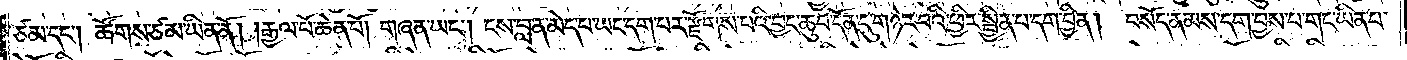ཙམ་དང༌། ཚོགས་ཙམ་ཡིན་ནོ།    །རྒྱལ་པོ་ཆེན་པོ། གཞན་ཡང༌། ངས་བླ་ན་མེད་པ་ཡང་དག་པར་རྫོགས་པའི་བྱང་ཆུབ་དོན་དུ་གཉེར་བའི་ཕྱིར་སྦྱིན་པ་དག་བྱིན། བསོད་ནམས་དག་བྱས་པ་གང་ཡིན་པ་
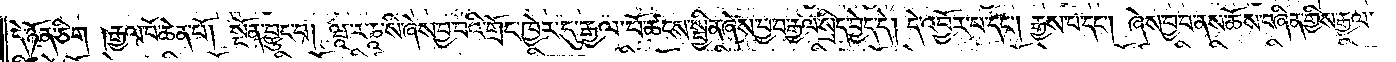དེ་ཉོན་ཅིག །རྒྱལ་པོ་ཆེན་པོ། སྔོན་བྱུང་བ། ཝཱ་ར་ཎཱ་སི་ཞེས་བྱ་བའི་གྲོང་ཁྱེར་དུ་རྒྱལ་པོ་ཚངས་སྦྱིན་ཞེས་བྱ་བ་རྒྱལ་སྲིད་བྱེད་དེ། དེ་འབྱོར་བ་དང༌། རྒྱས་པ་དང༌། ཞེས་བྱ་བ་ནས་ཆོས་བཞིན་གྱིས་རྒྱལ་
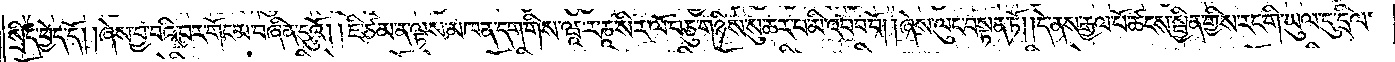སྲིད་བྱེད་དོ། །ཞེས་བྱ་བའི་བར་གོང་མ་བཞིན་དུའོ། །ཇི་ཙམ་ན་ལྟས་མཁན་དག་གིས་ཝཱ་ར་ཎཱ་སིར་ལོ་བཅུ་གཉིས་སུ་ཆར་པ་མི་འབབ་བོ། །ཞེས་ལུང་བསྟན་ཏོ། །དེ་ནས་རྒྱལ་པོ་ཚངས་སྦྱིན་གྱིས་རང་གི་ཡུལ་དུ་དྲིལ་
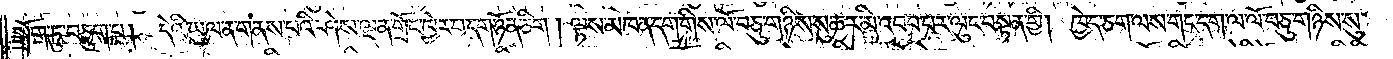སྒྲོག་ཏུ་བཅུག་པ། དེའི་ཡུལ་ན་གནས་པའི་ཤེས་ལྡན་གྲོང་ཁྱེར་བ་དག་ཉོན་ཅིག །ལྟས་མཁན་དག་གིས་ལོ་བཅུ་གཉིས་སུ་ཆར་མི་འབབ་པར་ལུང་བསྟན་གྱི། ཁྱེད་ཅག་ལས་གང་དག་ལ་ལོ་བཅུ་གཉིས་སུ་
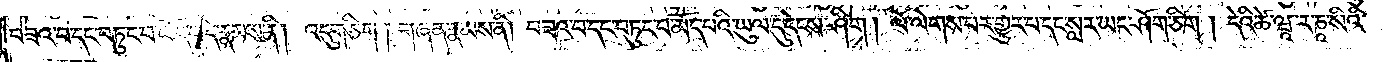བཟའ་བ་དང་བཏུང་བ་ཡོད་པ་དེ་རྣམས་ནི། འདུག་ཅིག །གཞན་རྣམས་ནི། བཟའ་བ་དང་བཏུང་བ་མོད་པའི་ཡུལ་དུ་དེངས་ཤིག །ལོ་ལེགས་པར་གྱུར་པ་དང་སླར་ཡང་ཤོག་ཅིག །དེའི་ཚེ་ཝཱ་ར་ཎཱ་སིའི་
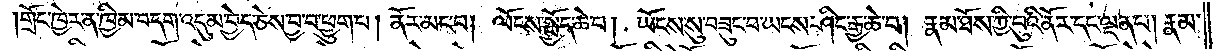གྲོང་ཁྱེར་ན་ཁྱིམ་བདག་འདུམ་བྱེད་ཅེས་བྱ་བ་ཕྱུག་པ། ནོར་མང་བ། ལོངས་སྤྱོད་ཆེ་བ། ཡོངས་སུ་བཟུང་བ་ཡངས་ཤིང་རྒྱ་ཆེ་བ། རྣམ་ཐོས་ཀྱི་བུའི་ནོར་དང་ལྡན་པ། རྣམ་
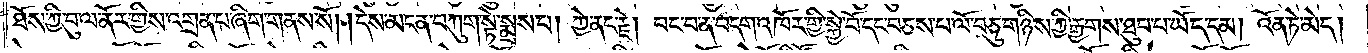ཐོས་ཀྱི་བུ་ལ་ནོར་གྱིས་འགྲན་པ་ཞིག་གནས་སོ། །དེས་མངན་བཀུག་སྟེ་སྨྲས་པ། ཀྱེ་ནང་རྗེ། བང་བ་ན་བདག་འཁོར་གྱི་སྐྱེ་བོ་དང་བཅས་པ་ལོ་བཅུ་གཉིས་ཀྱི་རྒྱགས་ཐུབ་པ་ཡོད་དམ། འོན་ཏེ་མེད།
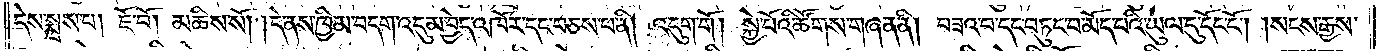དེས་སྨྲས་པ། ཇོ་བོ། མཆིས་སོ། །དེ་ནས་ཁྱིམ་བདག་འདུམ་བྱེད་འཁོར་དང་བཅས་པ་ནི། འདུག་གོ། སྐྱེ་བོའི་ཚོགས་གཞན་ནི། བཟའ་བ་དང་བཏུང་བ་མོད་པའི་ཡུལ་དུ་དོང་ངོ༌། །སངས་རྒྱས་
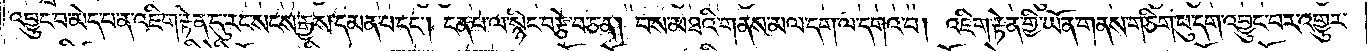འབྱུང་བ་མེད་པ་ན་འཇིག་རྟེན་དུ་རང་སངས་རྒྱས་དམན་པ་དང༌། ངན་པ་ལ་སྙིང་བརྩེ་བ་ཅན། བས་མཐའི་གནས་མལ་དག་ལ་དགའ་བ། འཇིག་རྟེན་གྱི་ཡོན་གནས་གཅིག་པུ་དག་འབྱུང་བར་འགྱུར་
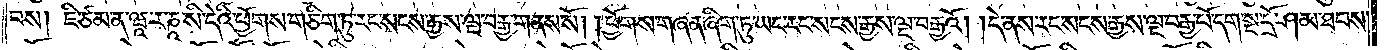བས། ཇི་ཙམ་ན་ཝཱ་ར་ཎཱ་སི་དེའི་ཕྱོགས་གཅིག་ཏུ་རང་སངས་རྒྱས་ལྔ་བརྒྱ་གནས་སོ། །ཕྱོགས་གཞན་ཞིག་ཏུ་ཡང་རང་སངས་རྒྱས་ལྔ་བརྒྱའོ། །དེ་ནས་རང་སངས་རྒྱས་ལྔ་བརྒྱ་པོ་དག་སྔ་དྲོ་ཤམ་ཐབས་
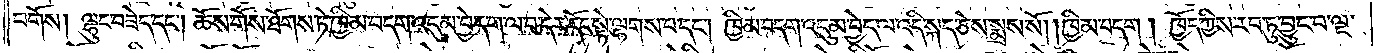བགོས། ལྷུང་བཟེད་དང༌། ཆོས་གོས་ཐོགས་ཏེ་ཁྱིམ་བདག་འདུམ་བྱེད་ག་ལ་བ་དེར་དོང་སྟེ་ལྷགས་པ་དང༌། ཁྱིམ་བདག་འདུམ་བྱེད་ལ་འདི་སྐད་ཅེས་སྨྲས་སོ། །ཁྱིམ་བདག །ཁྱོད་ཀྱིས་རབ་ཏུ་བྱུང་བ་ལྔ་
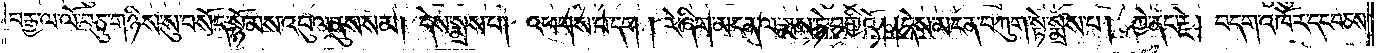བརྒྱ་ལ་ལོ་བཅུ་གཉིས་སུ་བསོད་སྙོམས་འབུལ་ནུས་སམ། དེས་སྨྲས་པ། འཕགས་པ་དག །རེ་ཞིག་མངན་ལ་རྨས་ཏེ་བགྱིའོ། །དེས་མངན་བཀུག་སྟེ་སྨྲས་པ། ཀྱེ་ནང་རྗེ། བདག་འཁོར་དང་བཅས་
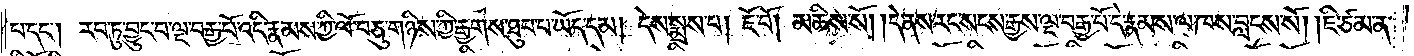པ་དང༌། རབ་ཏུ་བྱུང་བ་ལྔ་བརྒྱ་པོ་འདི་རྣམས་ཀྱི་ལོ་བཅུ་གཉིས་ཀྱི་རྒྱགས་ཐུབ་པ་ཡོད་དམ། དེས་སྨྲས་པ། ཇོ་བོ། མཆིས་སོ། །དེ་ནས་རང་སངས་རྒྱས་ལྔ་བརྒྱ་པོ་དེ་རྣམས་ལ་ཁས་བླངས་སོ། །ཇི་ཙམ་ན་
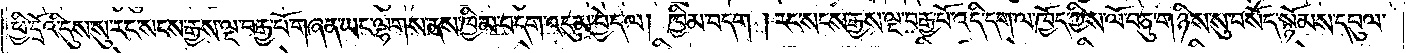ཕྱི་དྲོའི་དུས་སུ་རང་སངས་རྒྱས་ལྔ་བརྒྱ་པོ་གཞན་ཡང་ལྷགས་ནས་ཁྱིམ་བདག་འདུམ་བྱེད་ལ། ཁྱིམ་བདག །རང་སངས་རྒྱས་ལྔ་བརྒྱ་པོ་འདི་དག་ལ་ཁྱོད་ཀྱིས་ལོ་བཅུ་གཉིས་སུ་བསོད་སྙོམས་དབུལ་
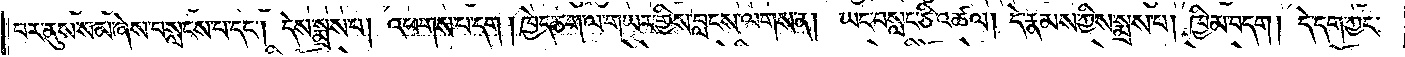བར་ནུས་སམ་ཞེས་བསླངས་པ་དང༌། དེས་སྨྲས་པ། འཕགས་པ་དག །ཁྱེད་ཅག་ལ་གཡར་གྱིས་བླངས་ལགས་ན། ཡང་བསླང་ཅི་འཚལ། དེ་རྣམས་ཀྱིས་སྨྲས་པ། ཁྱིམ་བདག། དེ་དག་ཀྱང་
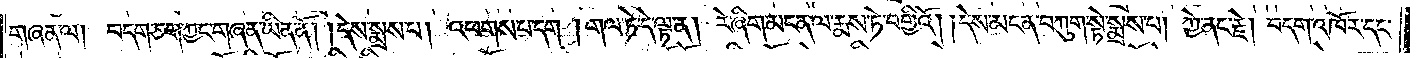གཞན་ལ། བདག་ཅག་ཀྱང་གཞན་ཡིན་ནོ། །དེས་སྨྲས་པ། འཕགས་པ་དག །གལ་ཏེ་དེ་ལྟ་ན། དེ་རི་ཞིག་མངན་ལ་རྨས་ཏེ་བགྱིའོ། །དེས་མངན་བཀུག་སྟེ་སྨྲས་པ། ཀྱེ་ནང་རྗེ། བདག་འཁོར་དང་
